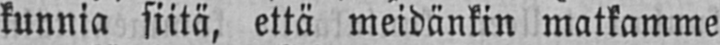kunnia siitä, että meidänkin matkamme
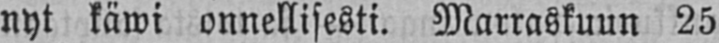nyt käwi onnellisesti. Marraskuun 25
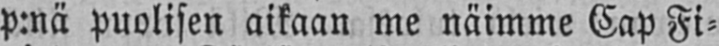p:nä puolisen aikaan me näimme Cap Fi-
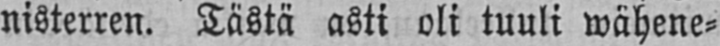nisterren. Tästä asti oli tuuli wähene-
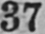37
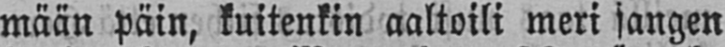mään päin, kuitenkin aaltoili meri sangen
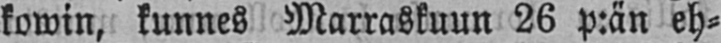kowin, kunnes Marraskuun 26 p:än eh-
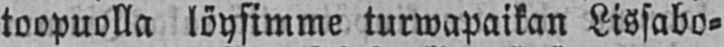toopuolla löysimme turwapaikan Lissabo-
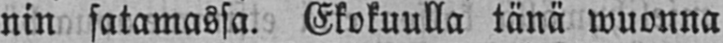nin satamassa. Elokuulla tänä wuonna
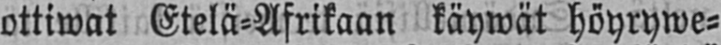ottiwat Etelä-Afrikaan käywät höyrywe-
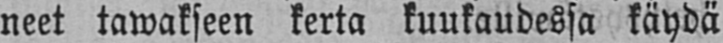neet tawakseen kerta kuukaudessa käydä
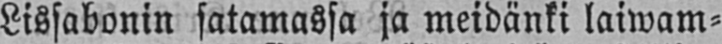Lissabonin satamassa ja meidänki laiwam-
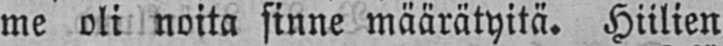me oli noita sinne määrätyitä. Hiilien
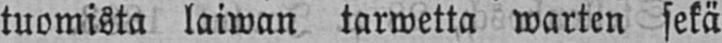tuomista laiwan tarwetta warten sekä
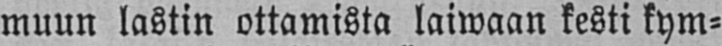muun lastin ottamista laiwaan kesti kym-
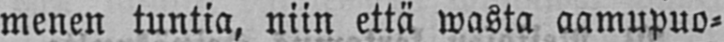menen tuntia, niin että wasta aamupuo-
